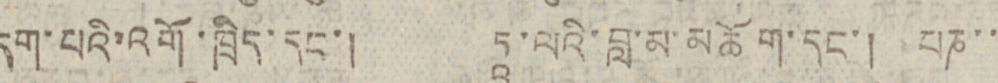དག་པའི་འགོ་ཁྲིད་དང་། ཏཱ་ལའི་བླ་མ་མཆོག་དང་། པཎ་་
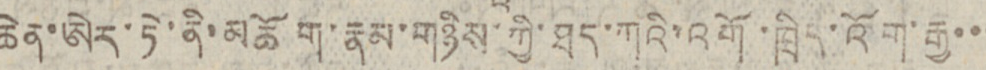ཆེན་ཨེར་ཏེ་ནི་མཆོག་རྣམ་གཉིས་ཀྱི་ཐད་ཀའི་འགོ་ཁྲིད་འོག་རྒྱ་་་
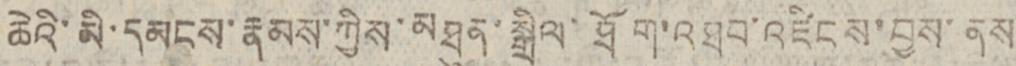ཆེའི་མི་དམངས་རྣམས་ཀྱིས་མཐུན་སྒྲིལ་ཐོག་འཐབ་འཛིངས་བྱས་ནས
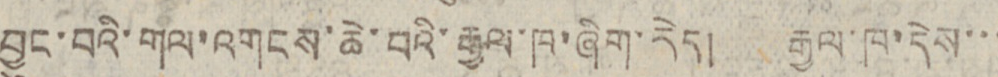བྱུང་བའི་གལ་འགངས་ཆེ་བའི་རྒྱལ་ཁ་ཞིག་རེད། རྒྱལ་ཁ་དེས་་་
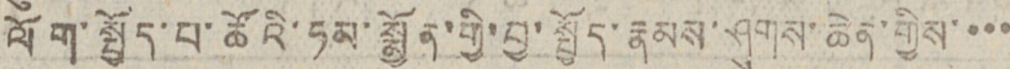ལོག་སྤྱོད་པ་ཚོའི་ཧམ་སྨྱོན་གྱི་བྱ་སྤྱོད་རྣམས་ཤུགས་ཆེན་གྱིས་་་་
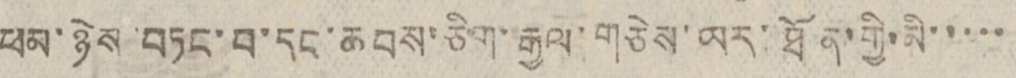ཕམ་ཉེས་བཏང་བ་དང་ཆབས་ཅིག་རྒྱལ་གཅེས་ཡར་ཐོན་གྱི་མི་་་་་
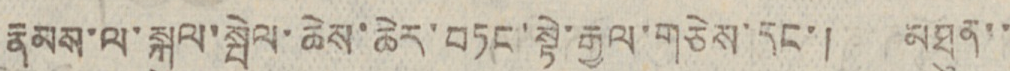རྣམས་ལ་སྐུལ་སྤེལ་ཆེས་ཆེར་བཏང་སྟེ་རྒྱལ་གཅེས་དང་། མཐུན་་
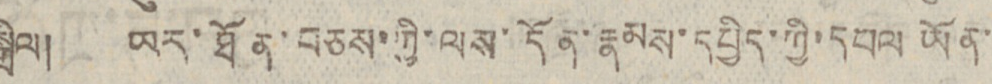སྒྲིལ། ཡར་ཐོན་བཅས་ཀྱི་ལས་དོན་རྣམས་དཔྱིད་ཀྱི་དཔལ ཡོན་
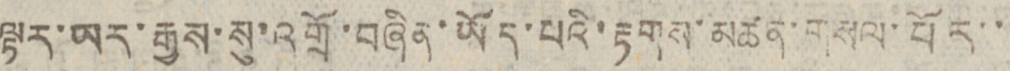ལྟར་ཡར་རྒྱས་སུ་འགྲོ་བཞིན་ཡོད་པའི་རྟགས་མཚན་གསལ་པོར་་
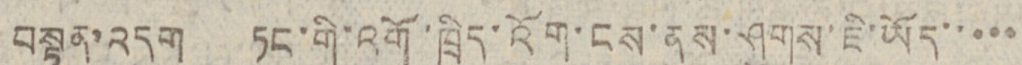བསྟན་འདུག ཏང་གི་འགོ་ཁྲིད་འོག་ངས་ནུས་ཤུགས་ཇི་ཡོད་་་་་
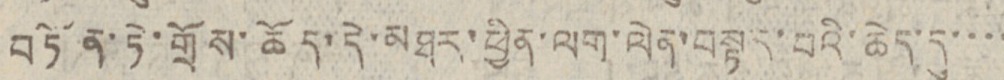བཏོན་ཏེ་གྲོས་ཆོད་དེ་མཐར་ཕྱིན་ལག་ལེན་བསྟར་བའི་ཆེད་དུ་་་་
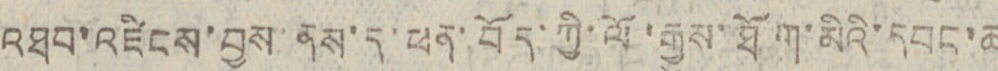འཐབ་འཛིངས་བྱས་ནས་ད་ཕན་བོད་ཀྱི་ལོ་རྒྱུས་ཐོག་མིའི་དབང་ཆ
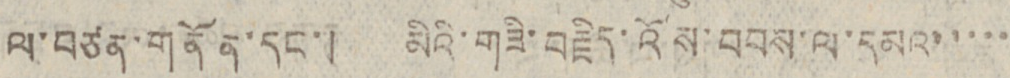ལ་བཙན་གནོན་དང་། མིའི་གཟི་བརྗིད་འོས་བབས་ལ་དམའ་་་་་
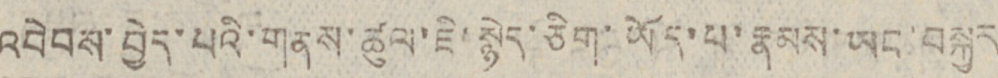འབེབས་བྱེད་པའི་གནས་ཚུལ་ཇི་སྙེད་ཅིག་ཡོད་པ་རྣམས་ཡང་བསྐྱར
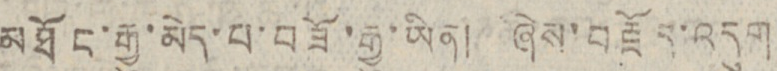མཐོང་རྒྱུ་མེད་པ་བཟོ་རྒྱུ་ཡིན། ཞེས་བརྗོད་འདུག
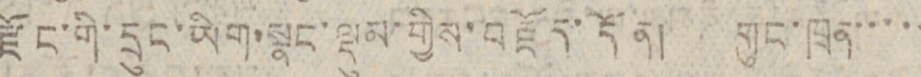རྫོང་གི་དྲུང་ཡིག་སྣང་ལྡུམ་གྱིས་བརྗོད་དོན། གུང་ཁྲན་་་་་
